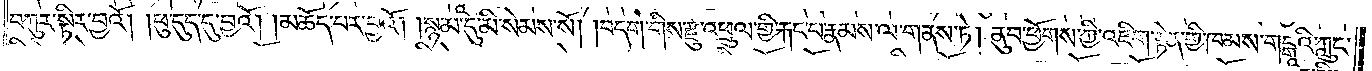བཀུར་སྟིར་བྱའོ། །ཕུ་དུད་དུ་བྱའོ། །མཆོད་པར་བྱའོ། །སྙམ་དུ་མི་སེམས་སོ། །བདག་གིས་རྫུ་འཕྲུལ་གྱི་རྐང་པ་རྣམས་ལ་གནས་ཏེ། ནུབ་ཕྱོགས་ཀྱི་འཇིག་རྟེན་གྱི་ཁམས་གངྒཱའི་ཀླུང་
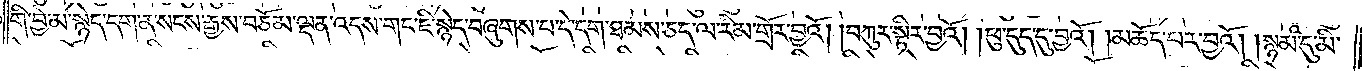གི་བྱེ་མ་སྙེད་དག་ན་སངས་རྒྱས་བཅོམ་ལྡན་འདས་གང་ཇི་སྙེད་བཞུགས་པ་དེ་དག་ཐམས་ཅད་ལ་རིམ་གྲོར་བྱའོ། །བཀུར་སྟིར་བྱའོ། །ཕུ་དུད་དུ་བྱའོ། །མཆོད་པར་བྱའོ། །སྙམ་དུ་མི་
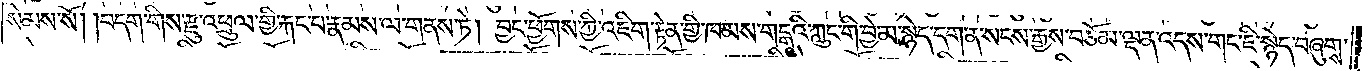སེམས་སོ། །བདག་གིས་རྫུ་འཕྲུལ་གྱི་རྐང་པ་རྣམས་ལ་གནས་ཏེ། བྱང་ཕྱོགས་ཀྱི་འཇིག་རྟེན་གྱི་ཁམས་གངྒཱའི་ཀླུང་གི་བྱེ་མ་སྙེད་དག་ན་སངས་རྒྱས་བཅོམ་ལྡན་འདས་གང་ཇི་སྙེད་བཞུགས་
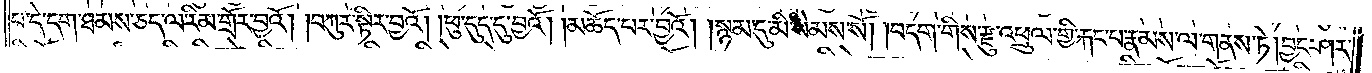པ་དེ་དག་ཐམས་ཅད་ལ་རིམ་གྲོར་བྱའོ། །བཀུར་སྟིར་བྱའོ། །ཕུ་དུད་དུ་བྱའོ། །མཆོད་པར་བྱའོ། །སྙམ་དུ་མི་སེམས་སོ། །བདག་གིས་རྫུ་འཕྲུལ་གྱི་རྐང་པ་རྣམས་ལ་གནས་ཏེ། བྱང་ཤར་
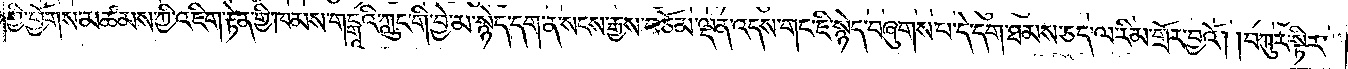གྱི་ཕྱོགས་མཚམས་ཀྱི་འཇིག་རྟེན་གྱི་ཁམས་གངྒཱའི་ཀླུང་གི་བྱེ་མ་སྙེད་དག་ན་སངས་རྒྱས་བཅོམ་ལྡན་འདས་གང་ཇི་སྙེད་བཞུགས་པ་དེ་དག་ཐམས་ཅད་ལ་རིམ་གྲོར་བྱའོ། །བཀུར་སྟིར་
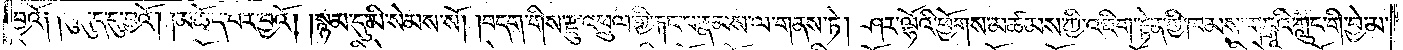བྱའོ༑ ༑ཕུ་དུད་དུ་བྱའོ། །མཆོད་པར་བྱའོ། །སྙམ་དུ་མི་སེམས་སོ། །བདག་གིས་རྫུ་འཕྲུལ་གྱི་རྐང་པ་རྣམས་ལ་གནས་ཏེ། ཤར་ལྷོའི་ཕྱོགས་མཚམས་ཀྱི་འཇིག་རྟེན་གྱི་ཁམས་གངྒཱའི་ཀླུང་གི་བྱེ་མ་
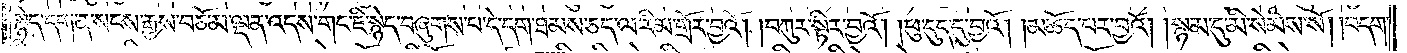སྙེད་དག་ན་སངས་རྒྱས་བཅོམ་ལྡན་འདས་གང་ཇི་སྙེད་བཞུགས་པ་དེ་དག་ཐམས་ཅད་ལ་རིམ་གྲོར་བྱའོ། །བཀུར་སྟིར་བྱའོ། །ཕུ་དུད་དུ་བྱའོ། །མཆོད་པར་བྱའོ། །སྙམ་དུ་མི་སེམས་སོ། །བདག་
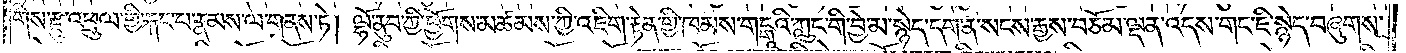གིས་རྫུ་འཕྲུལ་གྱི་རྐང་པ་རྣམས་ལ་གནས་ཏེ། ལྷོ་ནུབ་ཀྱི་ཕྱོགས་མཚམས་ཀྱི་འཇིག་རྟེན་གྱི་ཁམས་གངྒཱའི་ཀླུང་གི་བྱེ་མ་སྙེད་དག་ན་སངས་རྒྱས་བཅོམ་ལྡན་འདས་གང་ཇི་སྙེད་བཞུགས་
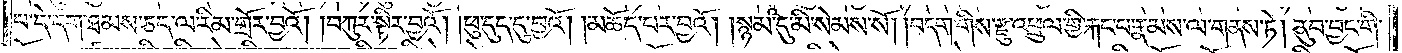པ་དེ་དག་ཐམས་ཅད་ལ་རིམ་གྲོར་བྱའོ། །བཀུར་སྟིར་བྱའོ། །ཕུ་དུད་དུ་བྱའོ། །མཆོད་པར་བྱའོ། །སྙམ་དུ་མི་སེམས་སོ། །བདག་གིས་རྫུ་འཕྲུལ་གྱི་རྐང་པ་རྣམས་ལ་གནས་ཏེ། ནུབ་བྱང་གི་
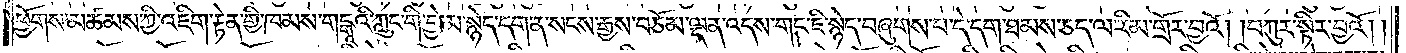ཕྱོགས་མཚམས་ཀྱི་འཇིག་རྟེན་གྱི་ཁམས་གངྒཱའི་ཀླུང་གི་བྱེ་མ་སྙེད་དག་ན་སངས་རྒྱས་བཅོམ་ལྡན་འདས་གང་ཇི་སྙེད་བཞུགས་པ་དེ་དག་ཐམས་ཅད་ལ་རིམ་གྲོར་བྱའོ། །བཀུར་སྟིར་བྱའོ། །
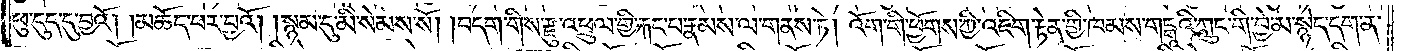ཕུ་དུད་དུ་བྱའོ། །མཆོད་པར་བྱའོ། །སྙམ་དུ་མི་སེམས་སོ། །བདག་གིས་རྫུ་འཕྲུལ་གྱི་རྐང་པ་རྣམས་ལ་གནས་ཏེ། འོག་གི་ཕྱོགས་ཀྱི་འཇིག་རྟེན་གྱི་ཁམས་གངྒཱའི་ཀླུང་གི་བྱེ་མ་སྙེད་དག་ན་
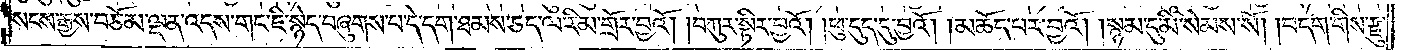སངས་རྒྱས་བཅོམ་ལྡན་འདས་གང་ཇི་སྙེད་བཞུགས་པ་དེ་དག་ཐམས་ཅད་ལ་རིམ་གྲོར་བྱའོ། །བཀུར་སྟིར་བྱའོ། །ཕུ་དུད་དུ་བྱའོ། །མཆོད་པར་བྱའོ། །སྙམ་དུ་མི་སེམས་སོ། །བདག་གིས་རྫུ་
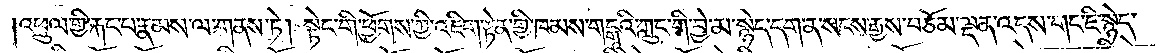འཕྲུལ་གྱི་རྐང་པ་རྣམས་ལ་གནས་ཏེ། སྟེང་གི་ཕྱོགས་ཀྱི་འཇིག་རྟེན་གྱི་ཁམས་གངྒཱའི་ཀླུང་གི་བྱེ་མ་སྙེད་དག་ན་སངས་རྒྱས་བཅོམ་ལྡན་འདས་གང་ཇི་སྙེད་
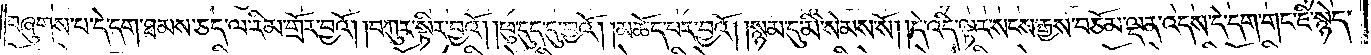བཞུགས་པ་དེ་དག་ཐམས་ཅད་ལ་རིམ་གྲོར་བྱའོ། །བཀུར་སྟིར་བྱའོ། །ཕུ་དུད་དུ་བྱའོ། །མཆོད་པར་བྱའོ། །སྙམ་དུ་མི་སེམས་སོ། །དེ་འདི་ལྟར་སངས་རྒྱས་བཅོམ་ལྡན་འདས་དེ་དག་གང་ཇི་སྙེད་
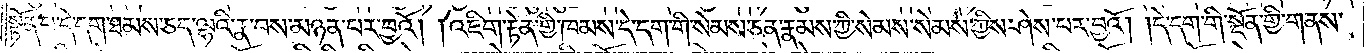སྟོན་པ་དེ་དག་ཐམས་ཅད་ལྷའི་རྣ་བས་མཉན་པར་བྱའོ། །འཇིག་རྟེན་གྱི་ཁམས་དེ་དག་གི་སེམས་ཅན་རྣམས་ཀྱི་སེམས་སེམས་ཀྱིས་ཤེས་པར་བྱའོ། །དེ་དག་གི་སྔོན་གྱི་གནས་
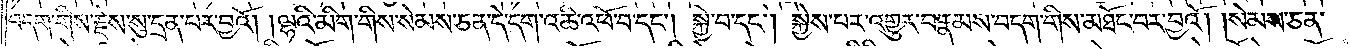བདག་གིས་རྗེས་སུ་དྲན་པར་བྱའོ། །ལྷའི་མིག་གིས་སེམས་ཅན་དེ་དག་འཆི་འཕོ་བ་དང༌། སྐྱེ་བ་དང༌། སྐྱེས་པར་འགྱུར་བ་རྣམས་བདག་གིས་མཐོང་བར་བྱའོ། །སེམས་ཅན་
